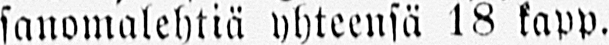sanomalehtiä yhteensä 18 kapp.
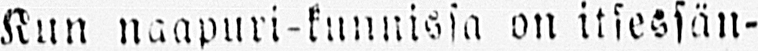Kun naapuri-kunnissa on itsessän-
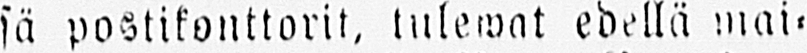sä postikonttorit, tulewat edellä mai-
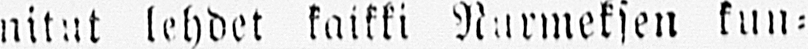nitut lehdet kaikki Narmeksen kun-
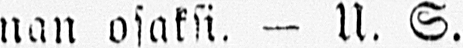nan osaksi. — U. S.
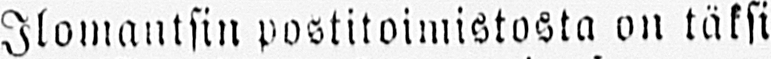Ilomantsin postitoimistosta on täksi
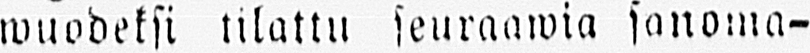wuodeksi tilattu seuraawia sanoma-
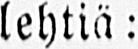lehtiä:
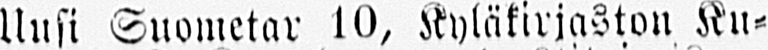Uusi Suometar 10, Kyläkirjaston Ku-
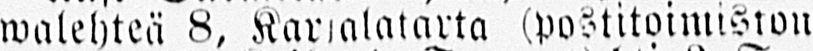walehteä 8, Karjalatarta (postitoimiston
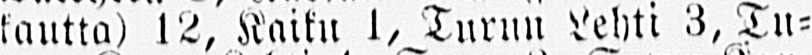kautta) 12, Kaiku 1, Turun Lehti 3, Tu-
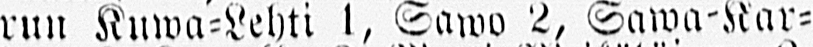run Kuwa-Lehti 1, Sawo 2, Sawa-Kar-
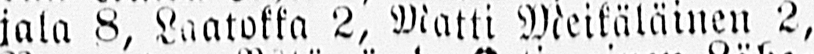jala 8, Laatokka 2, Matti Meikäläinen 2,
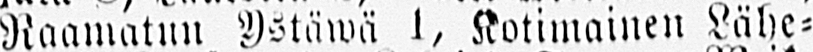Raamatun Ystäwä 1, Kotimainen Lähe-
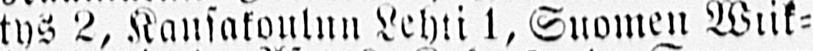tys 2, Kansakoulun Lehti 1, Suomen Wiik-
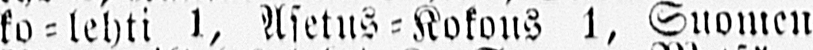ko-lehti 1, Asetus-Kokous 1, Suomen
